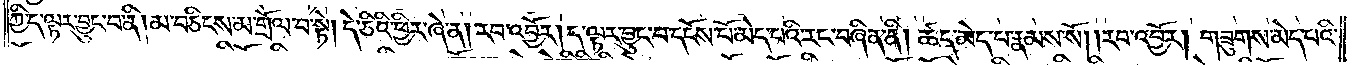ཀྱི་ད་ལྟར་བྱུང་བ་ནི། མ་བཅིངས་མ་གྲོལ་བ་སྟེ། དེ་ཅིའི་ཕྱིར་ཞེ་ན། རབ་འབྱོར། ད་ལྟར་བྱུང་བ་དངོས་པོ་མེད་པའི་རང་བཞིན་ནི། ཚད་མེད་པ་རྣམས་སོ། །རབ་འབྱོར། གཟུགས་མེད་པའི་
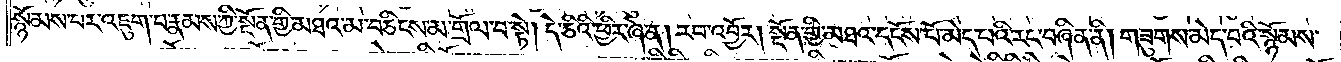སྙོམས་པར་འཇུག་པ་རྣམས་ཀྱི་སྔོན་གྱི་མཐའ་མ་བཅིངས་མ་གྲོལ་བ་སྟེ། དེ་ཅིའི་ཕྱིར་ཞེ་ན། རབ་འབྱོར། སྔོན་གྱི་མཐའ་དངོས་པོ་མེད་པའི་རང་བཞིན་ནི། གཟུགས་མེད་པའི་སྙོམས་
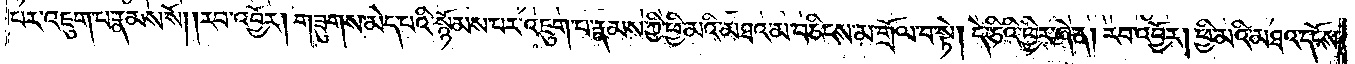པར་འཇུག་པ་རྣམས་སོ། །རབ་འབྱོར། གཟུགས་མེད་པའི་སྙོམས་པར་འཇུག་པ་རྣམས་ཀྱི་ཕྱི་མའི་མཐའ་མ་བཅིངས་མ་གྲོལ་བ་སྟེ། དེ་ཅིའི་ཕྱིར་ཞེ་ན། རབ་འབྱོར། ཕྱི་མའི་མཐའ་དངོས་
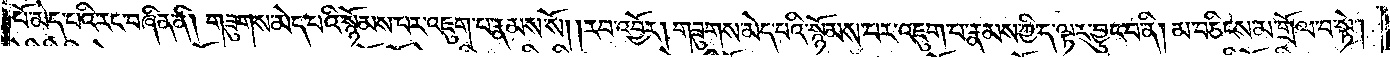པོ་མེད་པའི་རང་བཞིན་ནི། གཟུགས་མེད་པའི་སྙོམས་པར་འཇུག་པ་རྣམས་སོ། །རབ་འབྱོར། གཟུགས་མེད་པའི་སྙོམས་པར་འཇུག་པ་རྣམས་ཀྱི་ད་ལྟར་བྱུང་བ་ནི། མ་བཅིངས་མ་གྲོལ་བ་སྟེ།
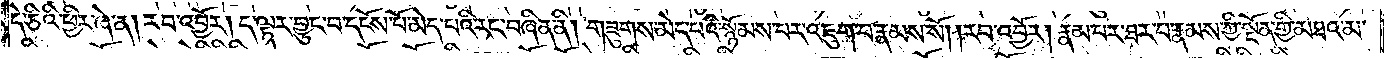དེ་ཅིའི་ཕྱིར་ཞེ་ན། རབ་འབྱོར། ད་ལྟར་བྱུང་བ་དངོས་པོ་མེད་པའི་རང་བཞིན་ནི། གཟུགས་མེད་པའི་སྙོམས་པར་འཇུག་པ་རྣམས་སོ། །རབ་འབྱོར། རྣམ་པར་ཐར་པ་རྣམས་ཀྱི་སྔོན་གྱི་མཐའ་མ་
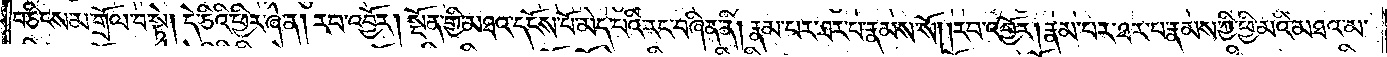བཅིངས་མ་གྲོལ་བ་སྟེ། དེ་ཅིའི་ཕྱིར་ཞེ་ན། རབ་འབྱོར། སྔོན་གྱི་མཐའ་དངོས་པོ་མེད་པའི་རང་བཞིན་ནི། རྣམ་པར་ཐར་པ་རྣམས་སོ། །རབ་འབྱོར། རྣམ་པར་ཐར་པ་རྣམས་ཀྱི་ཕྱི་མའི་མཐའ་མ་
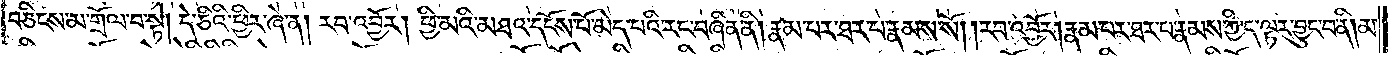བཅིངས་མ་གྲོལ་བ་སྟེ། དེ་ཅིའི་ཕྱིར་ཞེ་ན། རབ་འབྱོར། ཕྱི་མའི་མཐའ་དངོས་པོ་མེད་པའི་རང་བཞིན་ནི། རྣམ་པར་ཐར་པ་རྣམས་སོ། །རབ་འབྱོར། རྣམ་པར་ཐར་པ་རྣམས་ཀྱི་ད་ལྟར་བྱུང་བ་ནི། མ་
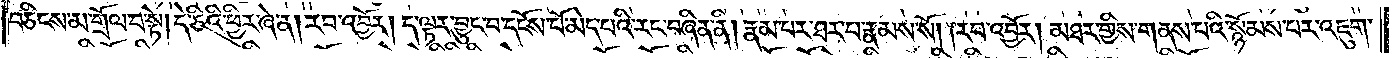བཅིངས་མ་གྲོལ་བ་སྟེ། དེ་ཅིའི་ཕྱིར་ཞེ་ན། རབ་འབྱོར། ད་ལྟར་བྱུང་བ་དངོས་པོ་མེད་པའི་རང་བཞིན་ནི། རྣམ་པར་ཐར་པ་རྣམས་སོ། །རབ་འབྱོར། མཐར་གྱིས་གནས་པའི་སྙོམས་པར་འཇུག་
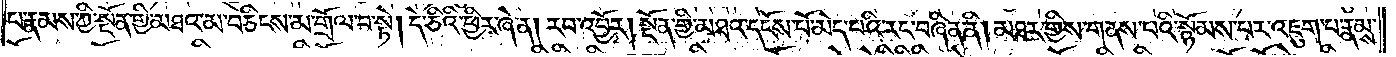པ་རྣམས་ཀྱི་སྔོན་གྱི་མཐའ་མ་བཅིངས་མ་གྲོལ་བ་སྟེ། དེ་ཅིའི་ཕྱིར་ཞེ་ན། རབ་འབྱོར། སྔོན་གྱི་མཐའ་དངོས་པོ་མེད་པའི་རང་བཞིན་ནི། མཐར་གྱིས་གནས་པའི་སྙོམས་པར་འཇུག་པ་རྣམས་
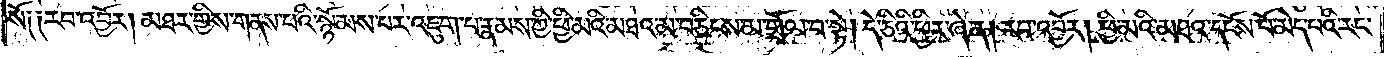སོ༑ ༑རབ་འབྱོར། མཐར་གྱིས་གནས་པའི་སྙོམས་པར་འཇུག་པ་རྣམས་ཀྱི་ཕྱི་མའི་མཐའ་མ་བཅིངས་མ་གྲོལ་བ་སྟེ། དེ་ཅིའི་ཕྱིར་ཞེ་ན། རབ་འབྱོར། ཕྱི་མའི་མཐའ་དངོས་པོ་མེད་པའི་རང་
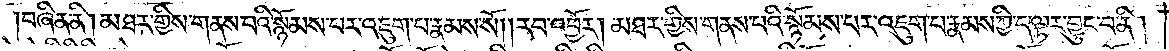བཞིན་ནི། མཐར་གྱིས་གནས་པའི་སྙོམས་པར་འཇུག་པ་རྣམས་སོ། །རབ་འབྱོར། མཐར་གྱིས་གནས་པའི་སྙོམས་པར་འཇུག་པ་རྣམས་ཀྱི་ད་ལྟར་བྱུང་བ་ནི།
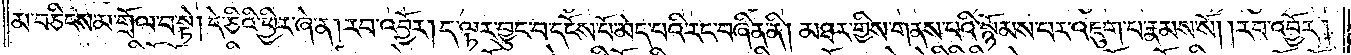མ་བཅིངས་མ་གྲོལ་བ་སྟེ། དེ་ཅིའི་ཕྱིར་ཞེ་ན། རབ་འབྱོར། ད་ལྟར་བྱུང་བ་དངོས་པོ་མེད་པའི་རང་བཞིན་ནི། མཐར་གྱིས་གནས་པའི་སྙོམས་པར་འཇུག་པ་རྣམས་སོ། །རབ་འབྱོར།
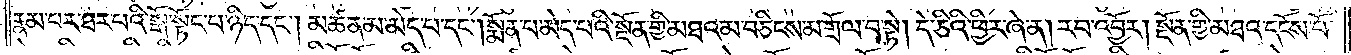རྣམ་པར་ཐར་པའི་སྒོ་སྟོང་པ་ཉིད་དང༌། མཚན་མ་མེད་པ་དང༌། སྨོན་པ་མེད་པའི་སྔོན་གྱི་མཐའ་མ་བཅིངས་མ་གྲོལ་བ་སྟེ། དེ་ཅིའི་ཕྱིར་ཞེ་ན། རབ་འབྱོར། སྔོན་གྱི་མཐའ་དངོས་པོ་
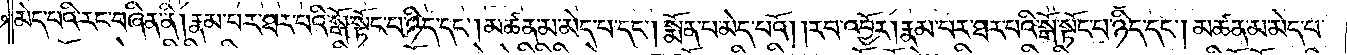མེད་པའི་རང་བཞིན་ནི། རྣམ་པར་ཐར་པའི་སྒོ་སྟོང་པ་ཉིད་དང༌། མཚན་མ་མེད་པ་དང༌། སྨོན་པ་མེད་པའོ། །རབ་འབྱོར། རྣམ་པར་ཐར་པའི་སྒོ་སྟོང་པ་ཉིད་དང༌། མཚན་མ་མེད་པ་
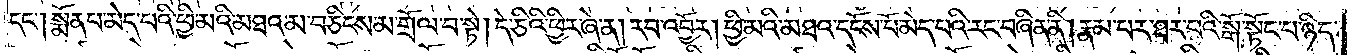དང༌། སྨོན་པ་མེད་པའི་ཕྱི་མའི་མཐའ་མ་བཅིངས་མ་གྲོལ་བ་སྟེ། དེ་ཅིའི་ཕྱིར་ཞེ་ན། རབ་འབྱོར། ཕྱི་མའི་མཐའ་དངོས་པོ་མེད་པའི་རང་བཞིན་ནི། རྣམ་པར་ཐར་པའི་སྒོ་སྟོང་པ་ཉིད་
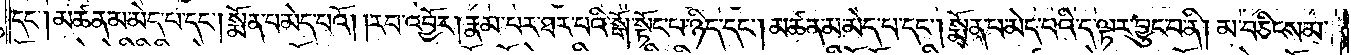དང༌། མཚན་མ་མེད་པ་དང༌། སྨོན་པ་མེད་པའོ། །རབ་འབྱོར། རྣམ་པར་ཐར་པའི་སྒོ་སྟོང་པ་ཉིད་དང༌། མཚན་མ་མེད་པ་དང༌། སྨོན་པ་མེད་པའི་ད་ལྟར་བྱུང་བ་ནི། མ་བཅིངས་མ་
